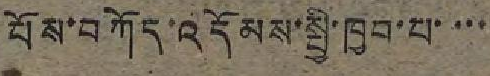པོས་བཀོད་འདོམས་སྤྱི་ཁྱབ་པ་་་་
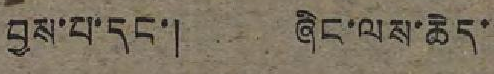བྱས་པ་དང་། ཞིང་ལས་ཆེད་
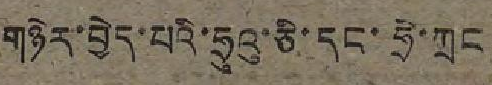གཉེར་བྱེད་པའི་ཧྲུའུ་ཅི་དང་ཧྲེ་ཀྲང
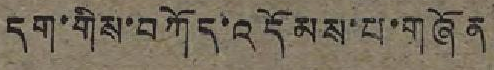དག་གིས་བཀོད་འདོམས་པ་གཞོན
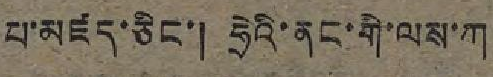པ་མཛད་ཅིང་། ཧྲེའི་ནང་གི་ལས་ཀ
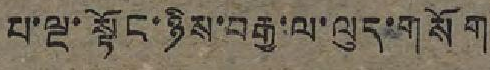པ་ལྔ་སྟོང་ཉིས་བརྒྱ་ལ་ལུད་གསོག
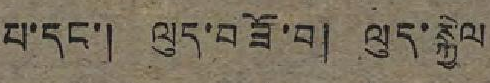པ་དང་། ལུད་བཟོ་བ། ལུད་སྐྱེལ
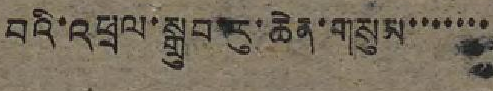བའི་འཕྲལ་སྒྲུབ་རུ་ཆེན་གསུམ་་་་་་་
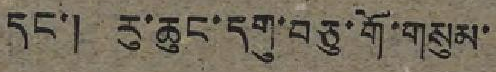དང་། རུ་ཆུང་དགུ་བཅུ་གོ་གསུམ་
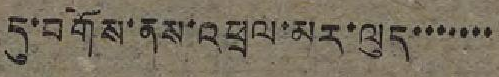དུ་བགོས་ནས་འཕྲལ་མར་ལུད་་་་་་་
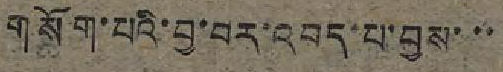གསོག་པའི་བྱ་བར་འབད་པ་བྱས་་་
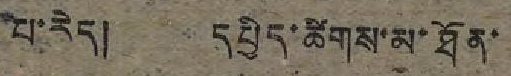པ་རེད། དཔྱིད་ཚོགས་མ་ཐོན་
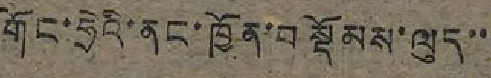གོང་ཧྲེའི་ནང་ཁྱོན་བསྡོམས་ལུད་་
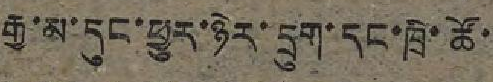རྒྱ་མ་དུང་ཕྱུར་ཉེར་དྲུག་དང་ཁྲི་ཚོ་
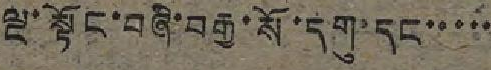ལྔ་སྟོང་བཞི་བརྒྱ་སོ་དགུ་དང་་་་་
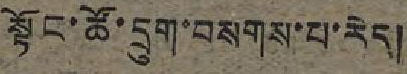སྟོང་ཚོ་དྲུག་བསགས་པ་རེད།
